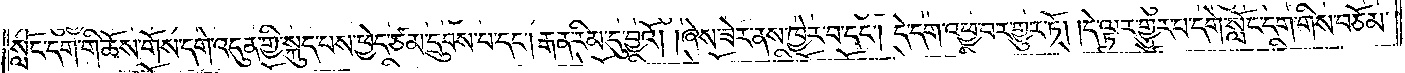སློང་དག་གི་ཆོས་གོས་དགེ་འདུན་གྱི་སྐུད་པས་ཕྱེད་ཙམ་དྲུབས་པ་དང༌། རྒན་རིམ་དུ་བྱའོ། །ཞེས་ཟེར་ནས་ཁྱེར་བ་དང༌། དེ་དག་འཕྱ་བར་གྱུར་ཏོ། །དེ་ལྟར་གྱུར་པ་དགེ་སློང་དག་གིས་བཅོམ་
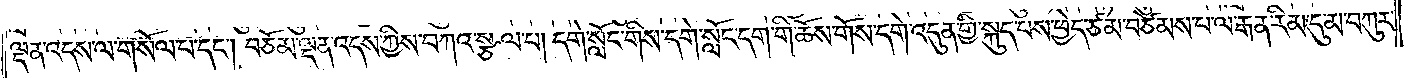ལྡན་འདས་ལ་གསོལ་པ་དང༌། བཅོམ་ལྡན་འདས་ཀྱིས་བཀའ་སྩལ་པ། དགེ་སློང་གིས་དགེ་སློང་དག་གི་ཆོས་གོས་དགེ་འདུན་གྱི་སྐུད་པས་ཕྱེད་ཙམ་བཙེམས་པ་ལ་རྒན་རིམ་དུ་མ་བཀུར་
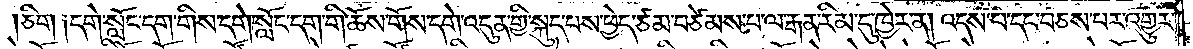ཅིག་༑དགེ་སློང་དག་གིས་དགེ་སློང་དག་གི་ཆོས་གོས་དགེ་འདུན་གྱི་སྐུད་པས་ཕྱེད་ཙམ་བཙེམས་པ་ལ་རྒན་རིམ་དུ་ཁྱེར་ན། འདས་པ་དང་བཅས་པར་འགྱུར་
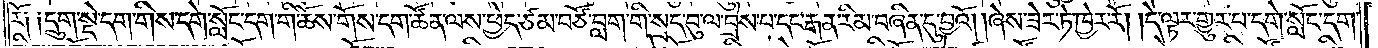རོ༑ ༑དྲུག་སྡེ་དག་གིས་དགེ་སློང་དག་གི་ཆོས་གོས་དག་ཚོན་ལས་ཕྱེད་ཙམ་བཙོ་བླག་གི་སྲད་བུ་ལ་བྲེས་པ་དང་རྒན་རིམ་བཞིན་དུ་བྱའོ། །ཞེས་ཟེར་ཏེ་ཁྱེར་རོ། །དེ་ལྟར་གྱུར་པ་དགེ་སློང་དག་
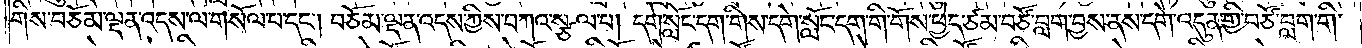གིས་བཅོམ་ལྡན་འདས་ལ་གསོལ་པ་དང༌། བཅོམ་ལྡན་འདས་ཀྱིས་བཀའ་སྩལ་པ། དགེ་སློང་དག་གིས་དགེ་སློང་དག་གི་གོས་ཕྱེད་ཙམ་བཙོ་བླག་བྱས་ནས་དགེ་འདུན་གྱི་བཙོ་བླག་གི་
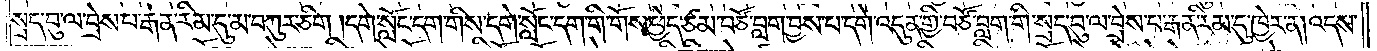སྲད་བུ་ལ་བྲེས་པ་རྒན་རིམ་དུ་མ་བཀུར་ཅིག །དགེ་སློང་དག་གིས་དགེ་སློང་དག་གི་གོས་ཕྱེད་ཙམ་བཙོ་བླག་བྱས་པ་དགེ་འདུན་གྱི་བཙོ་བླག་གི་སྲད་བུ་ལ་བྲེས་པ་རྒན་རིམ་དུ་ཁྱེར་ན། འདས་
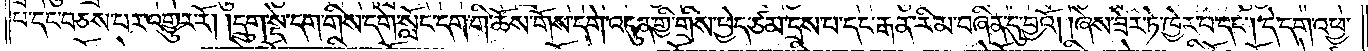པ་དང་བཅས་པར་འགྱུར་རོ། །དྲུག་སྡེ་དག་གིས་དགེ་སློང་དག་གི་ཆོས་གོས་དགེ་འདུན་གྱི་གྲིས་ཕྱེད་ཙམ་དྲས་པ་དང་རྒན་རིམ་བཞིན་དུ་བྱའོ། །ཞེས་ཟེར་ཏེ་ཁྱེར་བ་དང༌། དེ་དག་འཕྱ་
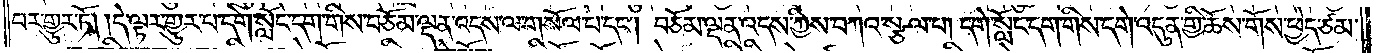བར་གྱུར་ཏོ། །དེ་ལྟར་གྱུར་པ་དགེ་སློང་དག་གིས་བཅོམ་ལྡན་འདས་ལ་གསོལ་པ་དང༌། བཅོམ་ལྡན་འདས་ཀྱིས་བཀའ་སྩལ་པ། དགེ་སློང་དག་གིས་དགེ་འདུན་གྱི་ཆོས་གོས་ཕྱེད་ཙམ་
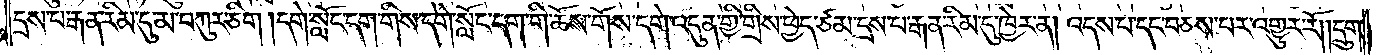དྲས་པ་རྒན་རིམ་དུ་མ་བཀུར་ཅིག །དགེ་སློང་དག་གིས་དགེ་སློང་དག་གི་ཆོས་གོས་དགེ་འདུན་གྱི་གྲིས་ཕྱེད་ཙམ་དྲས་པ་རྒན་རིམ་དུ་ཁྱེར་ན། འདས་པ་དང་བཅས་པར་འགྱུར་རོ། །དྲུག་
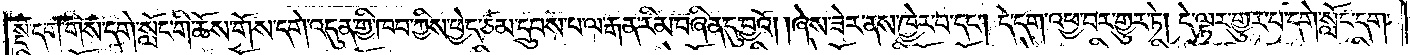སྡེ་དག་གིས་དགེ་སློང་གི་ཆོས་གོས་དགེ་འདུན་གྱི་ཁབ་ཀྱིས་ཕྱེད་ཙམ་དྲུབས་པ་ལ་རྒན་རིམ་བཞིན་དུ་བྱའོ། །ཞེས་ཟེར་ནས་ཁྱེར་བ་དང༌། དེ་དག་འཕྱ་བར་གྱུར་ཏེ། དེ་ལྟར་གྱུར་པ་དགེ་སློང་དག་
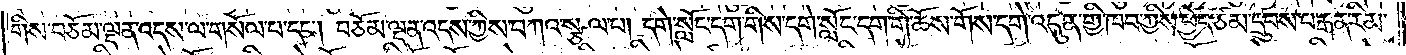གིས་བཅོམ་ལྡན་འདས་ལ་གསོལ་པ་དང༌། བཅོམ་ལྡན་འདས་ཀྱིས་བཀའ་སྩལ་པ། དགེ་སློང་དག་གིས་དགེ་སློང་དག་གི་ཆོས་གོས་དགེ་འདུན་གྱི་ཁབ་ཀྱིས་ཕྱེད་ཙམ་དྲུབས་པ་རྒན་རིམ་
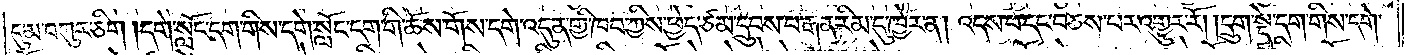དུ་མ་བཀུར་ཅིག །དགེ་སློང་དག་གིས་དགེ་སློང་དག་གི་ཆོས་གོས་དགེ་འདུན་གྱི་ཁབ་ཀྱིས་ཕྱེད་ཙམ་དྲུབས་པ་རྒན་རིམ་དུ་ཁྱེར་ན། འདས་པ་དང་བཅས་པར་འགྱུར་རོ། །དྲུག་སྡེ་དག་གིས་དགེ་
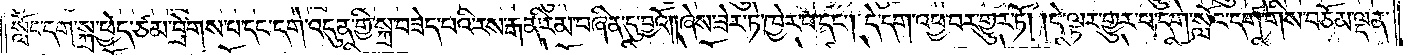སློང་དག་སྐྲ་ཕྱེད་ཙམ་བྲེགས་པ་དང་དགེ་འདུན་གྱི་སྐྲ་བཟེད་པའི་རས་རྒན་རིམ་བཞིན་དུ་བྱའོ། །ཞེས་ཟེར་ཏེ་ཁྱེར་བ་དང༌། དེ་དག་འཕྱ་བར་གྱུར་ཏོ། །དེ་ལྟར་གྱུར་པ་དགེ་སློང་དག་གིས་བཅོམ་ལྡན་
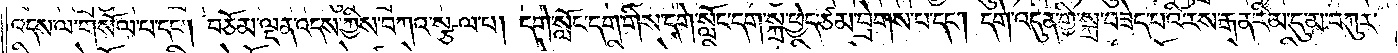འདས་ལ་གསོལ་པ་དང༌། བཅོམ་ལྡན་འདས་ཀྱིས་བཀའ་སྩལ་པ། དགེ་སློང་དག་གིས་དགེ་སློང་དག་སྐྲ་ཕྱེད་ཙམ་བྲེགས་པ་དང༌། དགེ་འདུན་གྱི་སྐྲ་བཟེད་པའི་རས་རྒན་རིམ་དུ་མ་བཀུར་
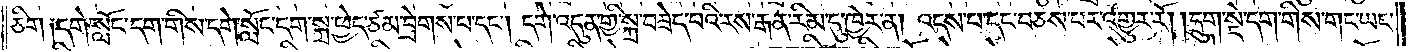ཅིག་༑དགེ་སློང་དག་གིས་དགེ་སློང་དག་སྐྲ་ཕྱེད་ཙམ་བྲེགས་པ་དང༌། དགེ་འདུན་གྱི་སྐྲ་བཟེད་པའི་རས་རྒན་རིམ་དུ་ཁྱེར་ན། འདས་པ་དང་བཅས་པར་འགྱུར་རོ། །དྲུག་སྡེ་དག་གིས་གང་ཡང་
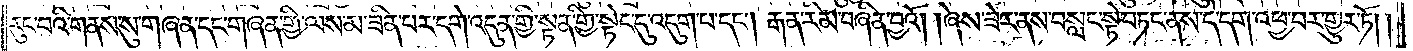རུང་བུའི་གནས་སུ་གཞན་དང་གཞན་གྱི་ལས་མ་ཟིན་པར་དགེ་འདུན་གྱི་སྟན་གྱི་སྟེང་དུ་འདུག་པ་དང༌། རྒན་རིམ་བཞིན་བྱའོ། །ཞེས་ཟེར་ནས་བསླང་སྟེ་བཏང་ནས་དེ་དག་འཕྱ་བར་གྱུར་ཏོ༎
